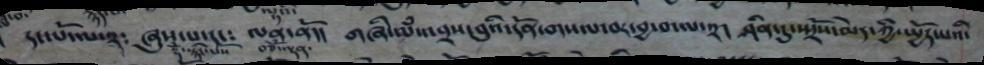དང་པོ་ལ་༢༴  ཞུས་པ་དང༴  ལན་ནོ།།  གཞི་ལཾས་འབྲས་བུའི་དོན་གསལ་བར་བྱ་བ་ལ་༢།  ཤིན་དུ་སྤྲོས་མེད་ཀྱི་སྤྱོད་པའི་
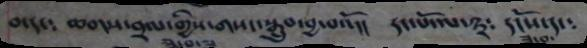བ་དང༴  ཆགས་བྲལ་གྱི་གསང་སྒྲུབ་བྱ་བའོ།།   དང་པོ་ལ་༣༴  དངོས་དང༴
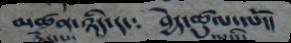མཚན་ཉིད་དང༴  བྱེད་ཚུལ་ལོ།།
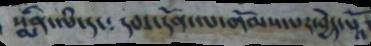སྨིན་ལཾ་དང༴ དབང་དོན་ལ་གོམས་པར་ཕྱེད་པྰོ
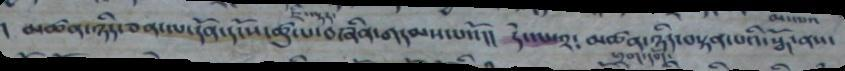མཚན་ཉིད་ཅན་ལ་དོན་དངོས་ཚུལ་བཞིན་གདམས་པའོ།།      དེས་ལ༢་    མཚན་ཉིད་བསྟན་པའི་སྒོ་ནས་
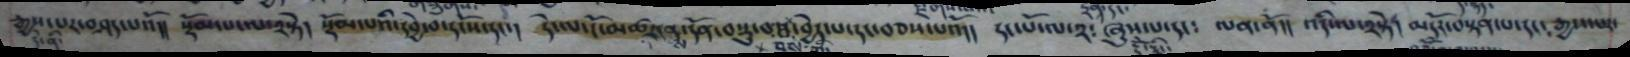རྒྱས་པར་བཤད་པའོ།།   སྡོམ་པ་ལ་༢སྟེ།    དེ་ན་ངོ་མཚར་ནས་དོན་བསྡུ་བ།།བྱེད་པ་དང་བཅས་པའོ།།   དང་པོ་ལ་༢༴ ཞུས་པ་དང༴   ལན་ནོ།།   འདི་ལ་༢སྟེ།  མདོར་བསྟན་པ་དང༴ རྒྱས་པར་
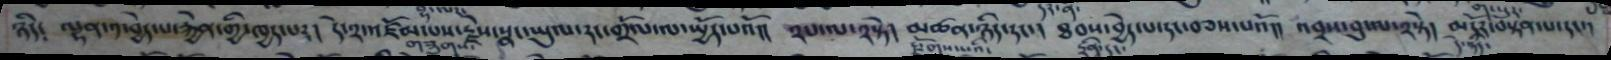ཉིད༴   ལྷན་༡་བྱེད་པ་རྐྱེན་གྱི་ཁྱད་པར།   དེ་༢་འཇོམ་པས་རྗེས་སྣང་ཡུལ་རང་གྲོལ་ལ་ཡྱོད་པའོ།།  ༢པ་ལ་༢སྟེ།  མཚན་ཉིད་དང་།  ཐབས་བྱེད་པ་དང་བཅས་པའོ།།   འབྲས་བུ་ལ༢སྟེ།   མདོར་བསྟན་པ་དང་།
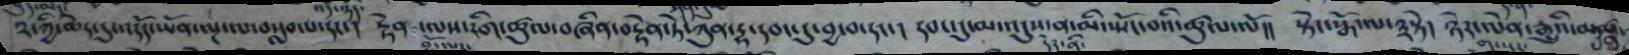༢་ཀྱི་ཆེད་དུས་འདོད་ཡོན་ལྔ་ལ་བསླབ་པ་དང་།  རྟེན ་ལས་རིག་ཚུལ་བཞིན་བརྟེན་ཏེ་རྡ་དབང་དཡ་བྱ་བ་དང་།  དབང་དུ་མ་འདུས་ན་མི་ཡོང་བའི་ཚུལ་ལོ།།  སྟེང་སྒོ་ལ་༣སྟེ།  ཉེར་ལེན་རྒྱུའི་མཚན
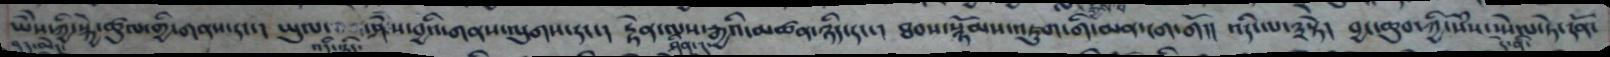ཡེེས་ཀྱི་སྐྱེ་ཚུལ་གྱི་གནས་དང། ཡུལའདི་ནི་ཤེས་བྱའི་གནས་ལུགས་དང་།   རྟེན་ལས་རྒྱའི་མཚན་ཉིད་དང་།   ཐབས་སྙོམས་འཇུག་གི་མན་ངག་གོ།།   འདི་ལ་༣སྟེ།  བྱང་ཆུབ་ཀྱི་སེཾས་དེ་ནི་སྤེལ་ཏེ་དོན་
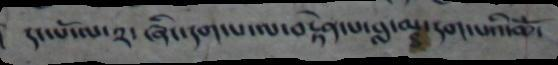དང་པོ་ལ་༢་ཞིང་དག་པ་ལ་བརྟེན་པ་བླ་མ་དག་པའི་ཆོ་
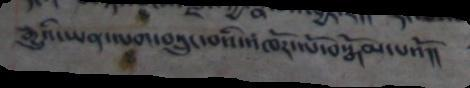རྒྱའི་ཡན་ལག་བསྲུང་བའི་འཁོར་ལོ་བསྒོམ་པའོ།།
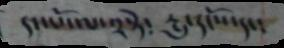དང་པོ་ལ་༢སྟེ༴ རྱུ་དངོས་དང་།
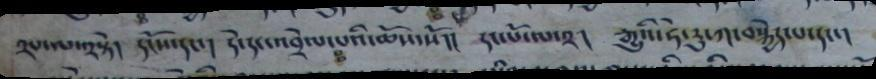༢པ་ལ་༢སྟེ། དངོས་དང་། དེ་དང་འབྲེལ་པའི་ཆོས་སོ།། དང་པོ་ལ་༢། རྒྱུའི་ཧེ་རུ་ཀ་བསྐྱེད་པ་དང་།
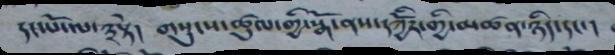དང་པོ་ལ་༣སྟེ། གསུངས་ཚུལ་གྱི་སྒོ་ནས་དཀྱིོར་གྱི་མཚན་ཉིད་དང་།
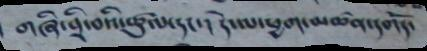གཞི་བྲི་བའི་ཚུལ་དང་། དེ་ལ་ཕྱག་མཚན་དགོད་
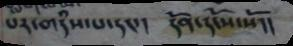པར་གདཾས་པ་དང་། དོན་དངོས་སོ།།
